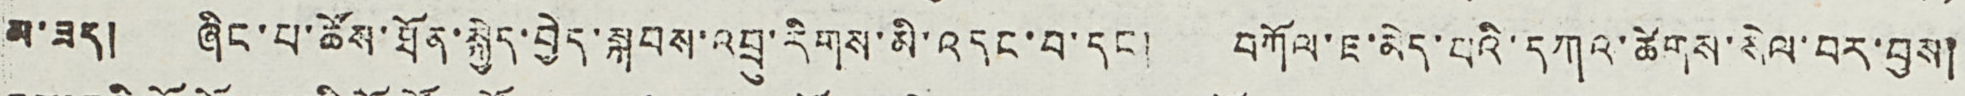མ་ཟད། ཞིང་པ་ཚོས་ཐོན་སྐྱེད་བྱེད་སྐབས་འབྲུ་རིགས་མི་འདང་བ་དང ། བཀོལ་ཇ་མེད་པའི་དཀའ་ཚེགས་སེལ་བར་བྱས།
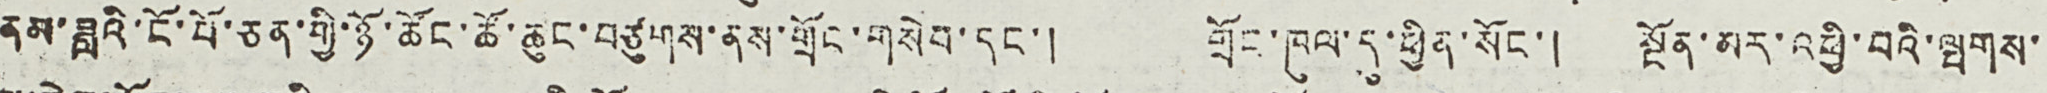ནམ་ཟླའི་ངོ་བོ་ཅན་གྱི་ཉོ་ཚོང་ཚོ་ཆུང་བཙུགས་ནས་གྲོང་གསེབ་དང་། གྲོང་ཁུལ་དུ་ཕྱིན་སོང་། སྔོན་མར་འཕྱི་བའི་ལྤགས་
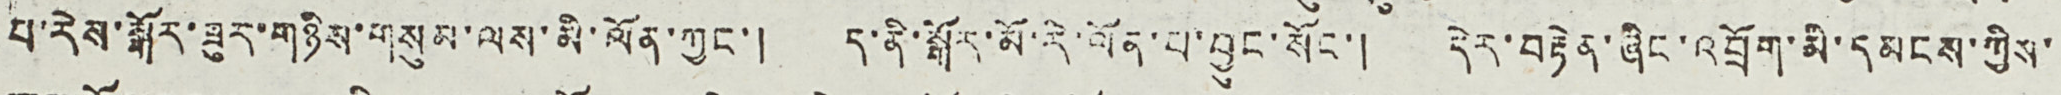པ་རེས་སྒོར་ཟུར་གཉིས་གསུམ་ལས་མི་ལོན་ཀྱང་། ད་ནི་སྒོར་མོ་རི་ལོན་པ་བྱུང་སོང་། དེར་བརྟེན་ཞིང་འབྲོག་མི་དམངས་ཀྱིས་
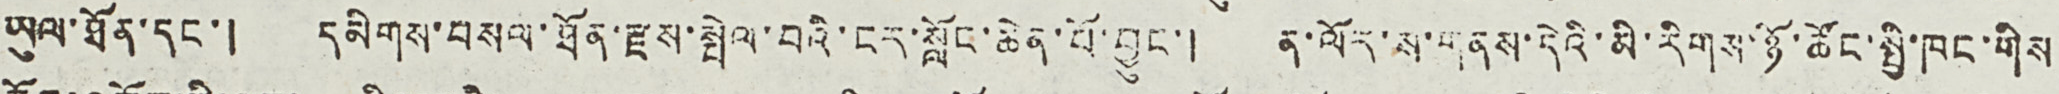ཡུལ་ཐོན་དང་། དམིགས་བསལ་ཐོན་རྫས་སྤེལ་བའི་སློང་ཆེན་པོ་བྱུང་། ན་ལོར་ས་གནས་དེའི་མི་རིགས་ཉོ་ཚོང་སྤྱི་ཁང་གིས
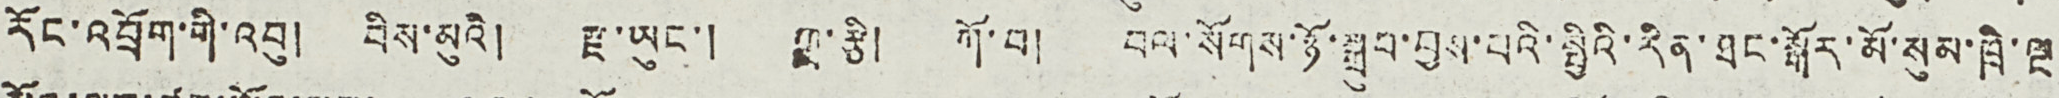རོང་འབྲོག་གི་འབུ། བིས་མུའི། རྫ་ཡུང་། ཀླ་རྩི། ཀོ་བ། བལ་སོགས་ཉོ་སྒྲུབ་བྱས་པའི་སྤྱིའི་རིན་ཐང་སྒོར་མོ་སུམ་ཁྲི་ལྔ
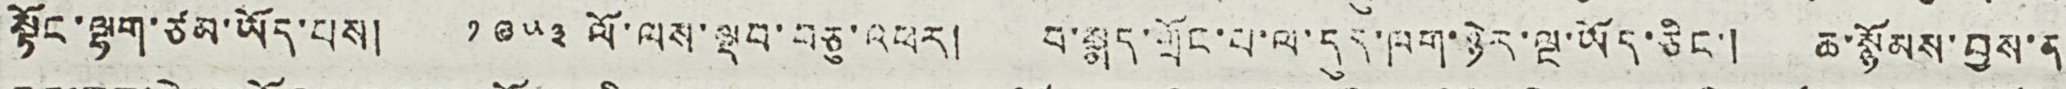སྟོང་ལྷག་ཙམ་ཡོད་པས། ༡༩༥༣ ལོ་ལས་ལྡབ་བཅུ་འཕར། བ་སྨད་གྲོང་པ་ལ་དུད་ཁག་ཉེར་ལྔ་ཡོད་ཅིང་། ཆ་སྙོམས་བྱས་ན
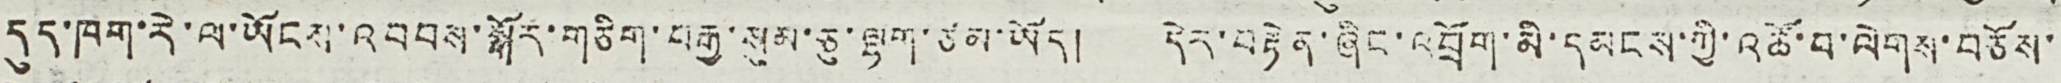དུད་ཁག་རེ་ལ་ཡོངས་འབབས་སྒོར་གཅིག་བརྒྱ་སུམ་ཅུ་ལྷག་ཙམ་ཡོད། དེར་བརྟེན་ཞིང་འབྲོག་མི་དམངས་ཀྱི་འཚོ་བ་ལེགས་བཅོས་
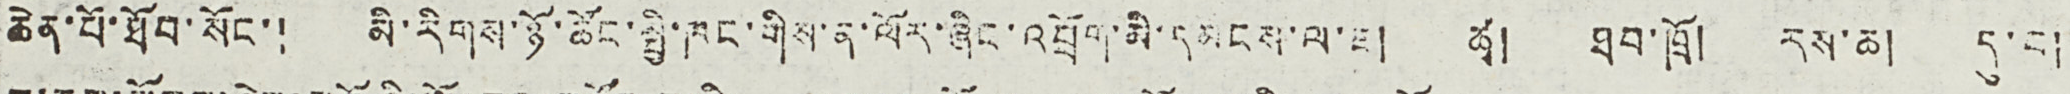ཆེན་པོ་ཐོབ་སོང་། མི་རིགས་ཉོ་ཚོང་སྤྱི་ཁང་གིས་ན་ལོར་ཞིང་འབྲོག་མི་དམངས་ལ་ཇ། ཚྭ། ཐབ་ཁྲོ། རས་ཆ། དུ་བ།
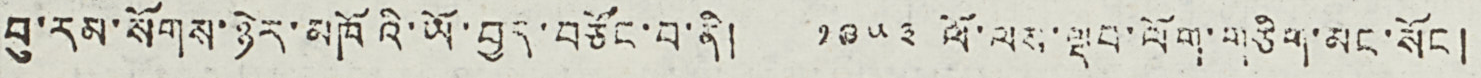བུ་རམ་སོགས་ཉེར་མཁོའི་ཡོ་བྱད་བཙོང་བ་ནི། ༡༩༥༣ ལོ་ལས་ལྡབ་ལོག་གཅིག་མང་སོང །
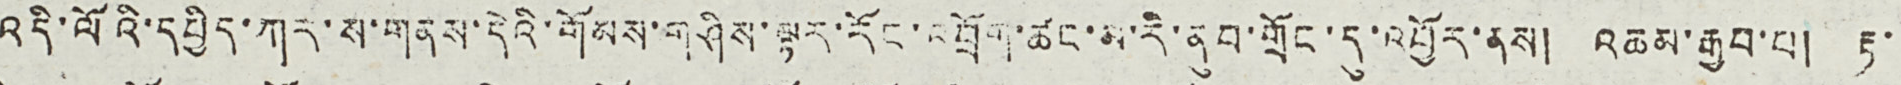འདི་ལོའི་དཔྱིད་ཀར་ས་གནས་དེའི་གོམས་གཤིས་ལྟར་རོང་འབྲོག་ཚང་མ་རི་ནུབ་གྲོང་དུ་འབྱོར་ནས། འཆམ་རྒྱབ་པ། རྟ་
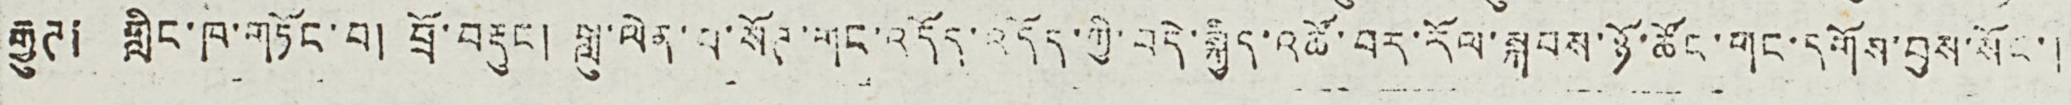རྒྱུཊ། གླིང་ཁ་གཏོང་བ། བྲོ་བརྡུང ། གླུ་ལེན་པ་སོཊ་གང་འདོད་འདོད་ཀྱི་བདེ་སྐྱིད་འཚོ་བར་རོལ་སྐབས་ཉོ་ཚོང་གང་དགོས་བྱས་སོང་།
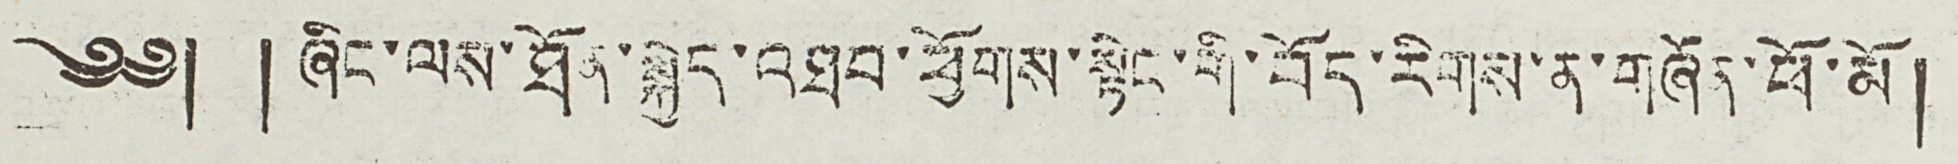༄༅། ། ཞིང་ལས་ཐོན་སྐྱེད་འཐབ་ཕྱོགས་སྟེང་གི་བོད་རིགས་ན་གཞོན་ཕོ་མོ།
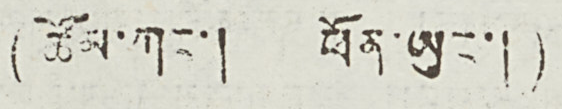(ཚོམ་ཀང་། ཕོན་ཡུང་།)
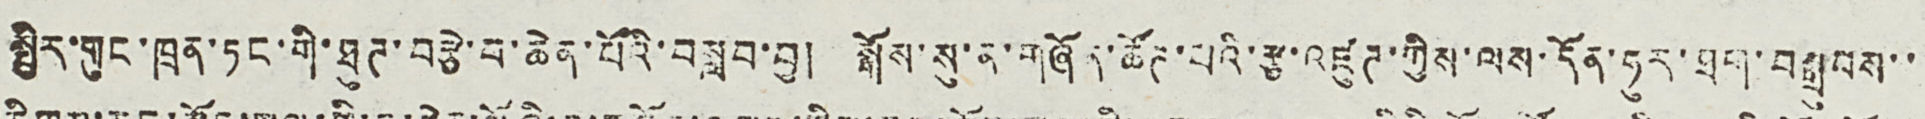སྤྱིར་གུང་ཁྲན་ཏང་གི་ཐུཊ་བརྩེ་བ་ཆེན་པོའི་བསླབ་བྱ། སྒོས་སུ་ན་གཞོན་ཚོཊ་པའི་རྩ་འཛུཊ་ཀྱིས་ལས་དོན་ཧུར་ཐག་བསྒྲུབས་་
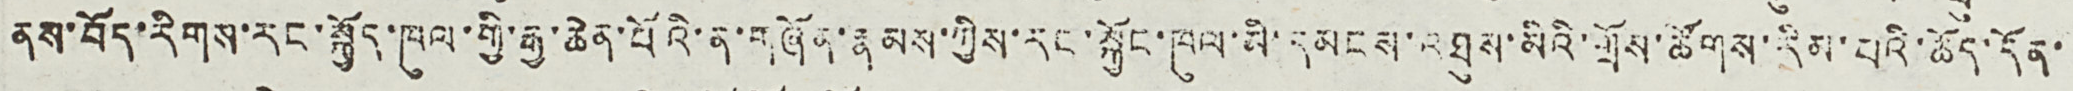ནས་བོད་རིགས་རང་སྐྱོད་ཁུལ་གྱི་རྒྱ་ཆེན་པོའི་ན་གཞོན་རྣམས་ཀྱིས་རང་སྐྱོང་ཁུལ་མི་དམངས་འཐུས་མིའི་གྲོས་ཚོགས་རིམ་པའི་ཆོད་དོན་
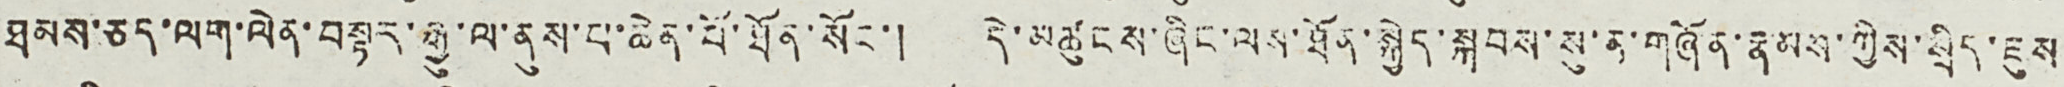ཐམས་ཅད་ལག་ལེན་བསྟར་རྒྱུ་ལ་ནུས་པ་ཆེན་པོ་ཐོན་སོང་། དེ་མཚུངས་ཞིང་ལས་ཐོན་སྐྱེད་སྐབས་སུ་ན་གཞོན་རྣམས་ཀྱིས་སྲིད་ཇུས
